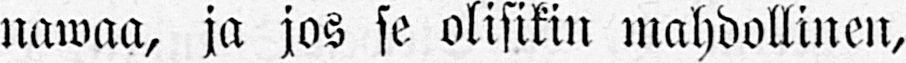nawaa, ja jos se olisikin mahdollinen,
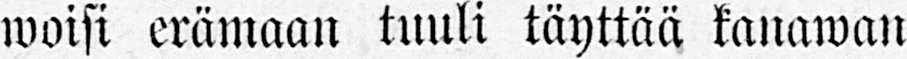woisi erämaan tuuli täyttää kanawan
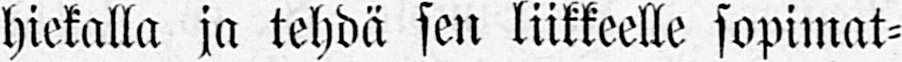hiekalla ja tehdä sen liikkeelle sopimat-
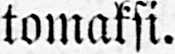tomaksi.
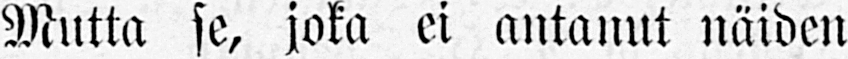Mutta se, joka ei antanut näiden
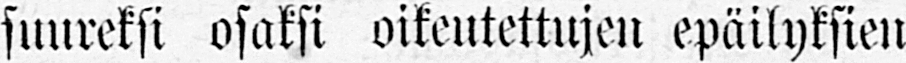suureksi osaksi oikeutettujen epäilyksien
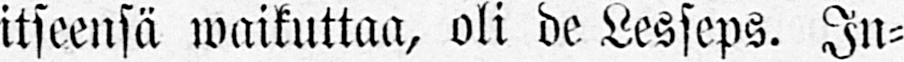itseensä waikuttaa, oli de Lesseps. In-
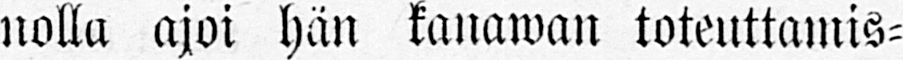nolla ajoi hän kanawan toteuttamis-
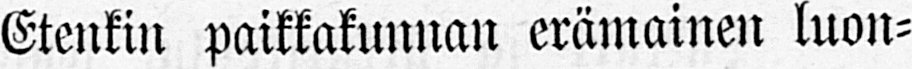Etenkin paikkakunnan erämainen luon-
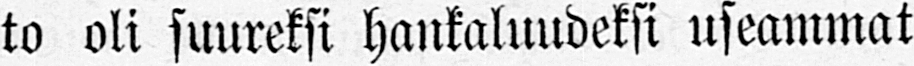to oli suureksi hankaluudeksi useammat
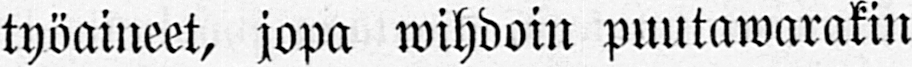työaineet, jopa wihdoin puutawarakin
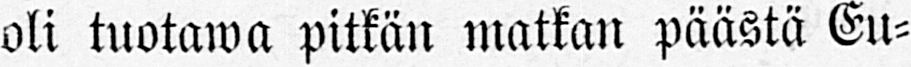oli tuotawa pitkän matkan päästä Eu-
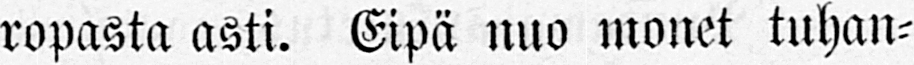ropasta asti. Eipä nuo monet tuhan-
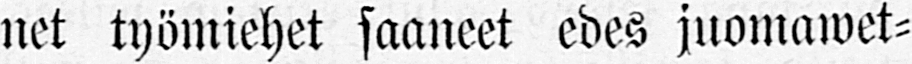net työmiehet saaneet edes juomawet-
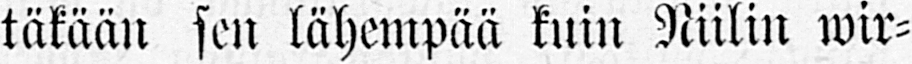täkään sen lähempää kuin Niilin wir-
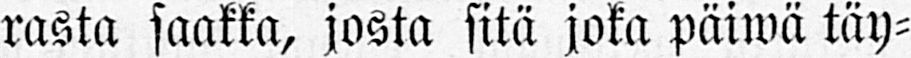rasta saakka, josta sitä joka päiwä täy-
